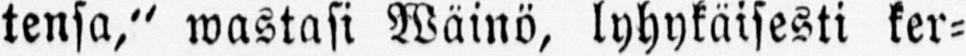tensa," wastasi Wäinö, lyhykäisesti ker-
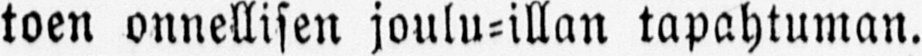toen onnellisen joulu-illan tapahtuman.
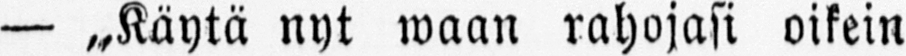— „Käytä nyt waan rahojasi oikein
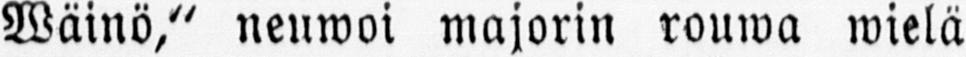Wäinö," neuwoi majorin rouwa wielä
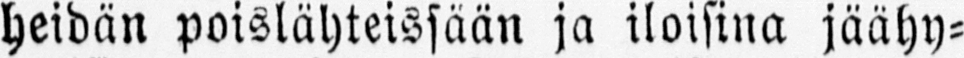heidän poislähteissään ja iloisina jäähy-
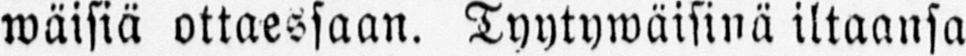wäisiä ottaessaan. Tyytywäisinä iltaansa
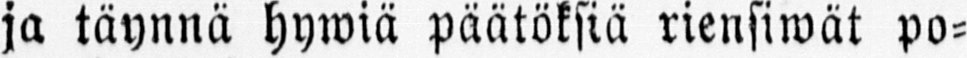ja täynnä hywiä päätöksiä riensiwät po-
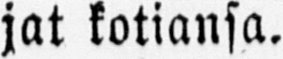jat kotiansa.
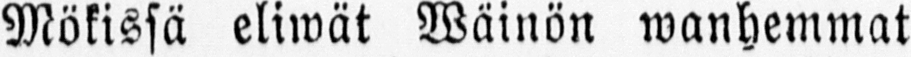Mökissä eliwät Wäinön wanhemmat
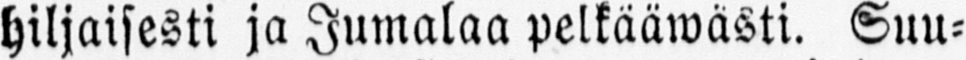hiljaisesti ja Jumalaa pelkääwästi. Suu-
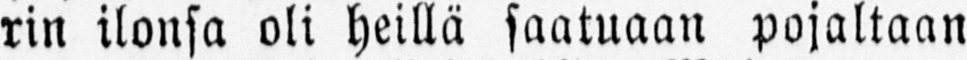rin ilonsa oli heillä saatuaan pojaltaan
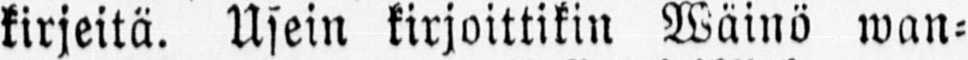kirjeitä. Usein kirjoittikin Wäinö wan-
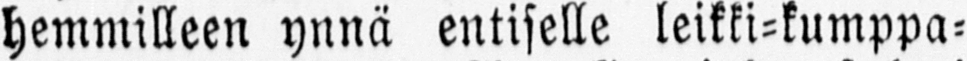hemmilleen ynnä entiselle leikki-kumppa-
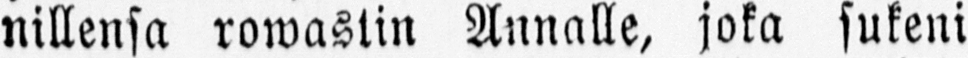nillensa rowastin Annalle, joka sukeni
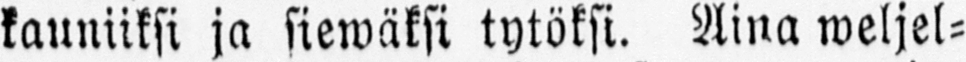kauniiksi ja siewäksi tytöksi. Aina weljel-
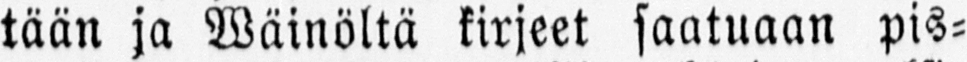tään ja Wäinöltä kirjeet saatuaan pis-
